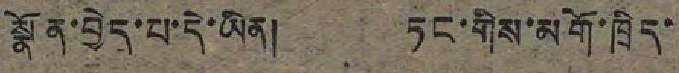སྣོན་བྱེད་པ་དེ་ཡིན། ཏང་གིས་མགོ་ཁྲིད་
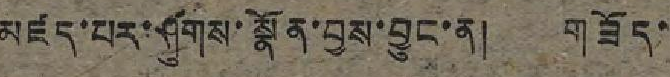མཛད་པར་ཤུགས་སྣོན་བྱས་བྱུང་ན། གཟོད་
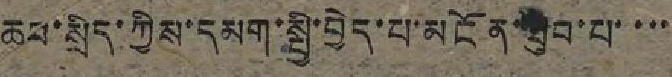ཆབ་སྲིད་ཀྱིས་དམག་སྤྱི་བྱེད་པ་མངོན་ཐུབ་པ་་་་
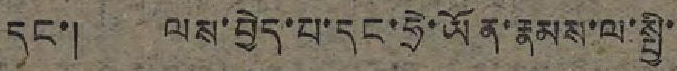དང་། ལས་བྱེད་པ་དང་ཧྲེ་ཡོན་རྣམས་ལ་སྤྱི་
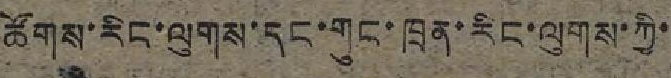ཚོགས་རིང་ལུགས་དང་གུང་ཁྲན་རིང་ལུགས་ཀྱི་
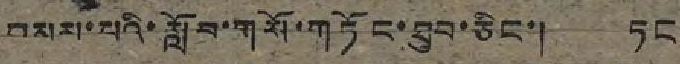བསམ་པའི་སློབ་གསོ་གཏོང་ཐུབ་ཅིང་། ཏང
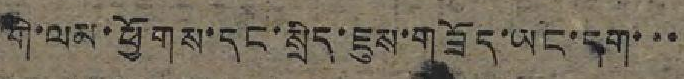གི་ལམ་ཕྱོགས་དང་སྲིད་ཇུས་གཟོད་ཡང་དག་་་
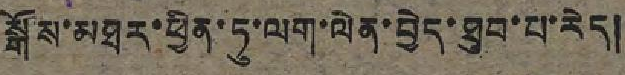སྒོས་མཐར་ཕྱིན་ཏུ་ལག་ལེན་བྱེད་ཐུབ་པ་རེད།
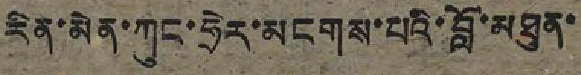རིན་མེན་ཀུང་ཧྲེར་མངགས་པའི་བློ་མཐུན་
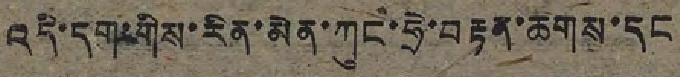འདི་དག་གིས་རིན་མེན་ཀུང་ཧྲེ་བརྟན་ཆགས་དང
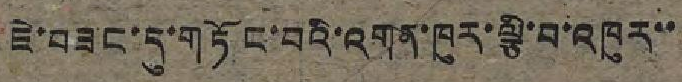ཇེ་བཟང་དུ་གཏོང་བའི་འགན་ཁུར་ལྕི་བ་འཁུར་་
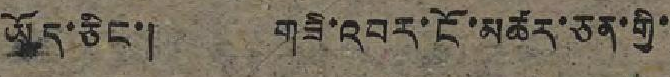ཡོད་ཅིང་། གཟི་འབར་ངོ་མཚར་ཅན་གྱི་
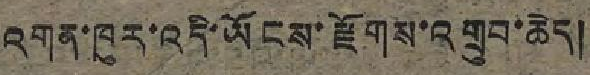འགན་ཁུར་འདི་ཡོངས་རྫོགས་འགྲུབ་ཆེད།
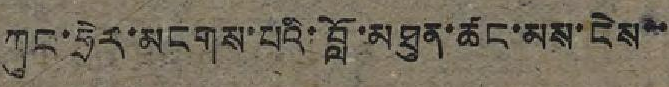ཀུང་ཧྲེར་མངགས་པའི་བློ་མཐུན་ཚང་མས་ངེས་་
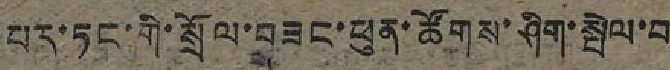པར་ཏང་གི་སྲོལ་བཟང་ཕུན་ཚོགས་ཤིག་སྤེལ་བ
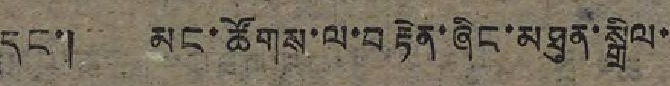དང་། མང་ཚོགས་ལ་བརྟེན་ཞིང་མཐུན་སྒྲིལ་
